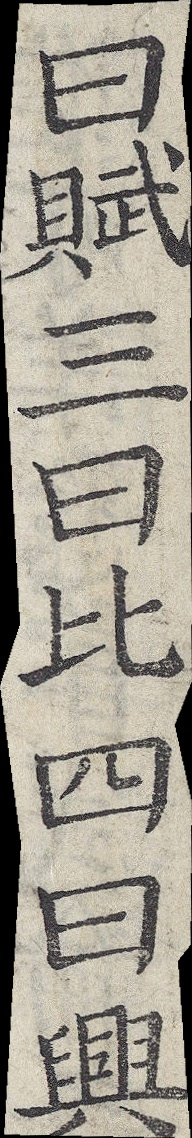曰賦三曰比四曰興
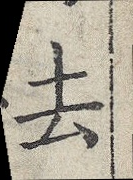去
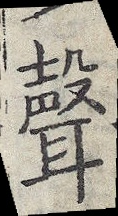聲
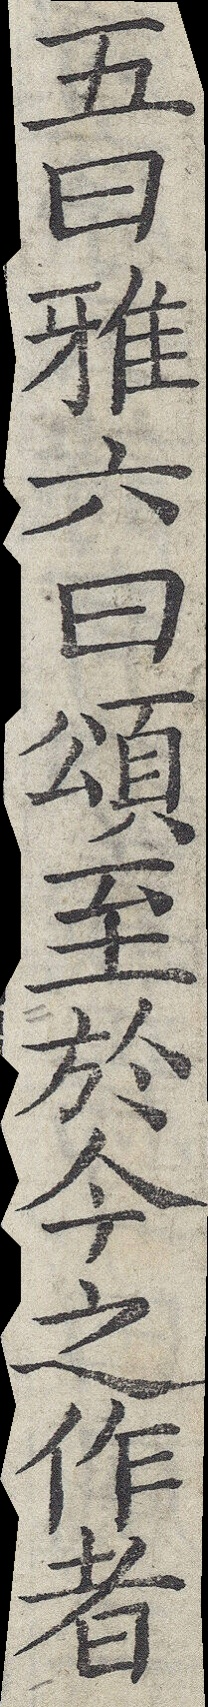五曰雅六曰頌至於今之作者
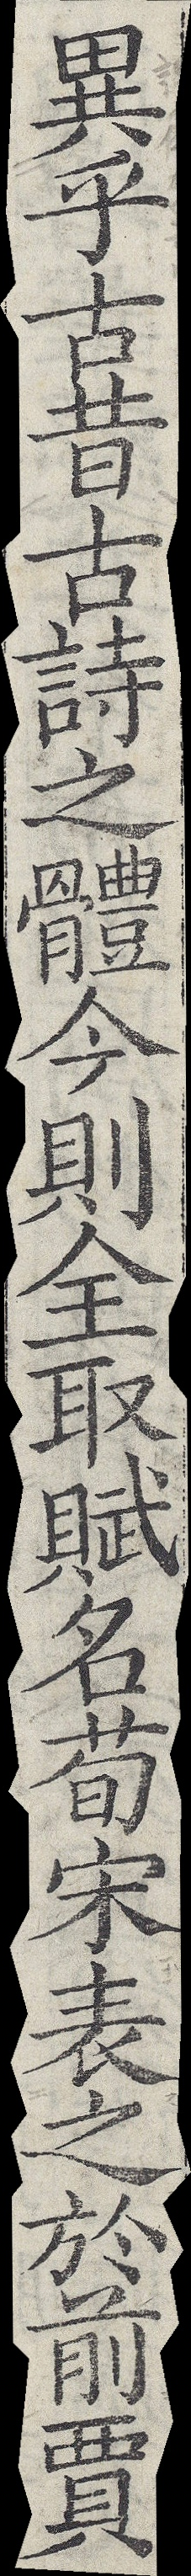異乎古昔古詩之體今則全取賦名荀宋表之於前賈
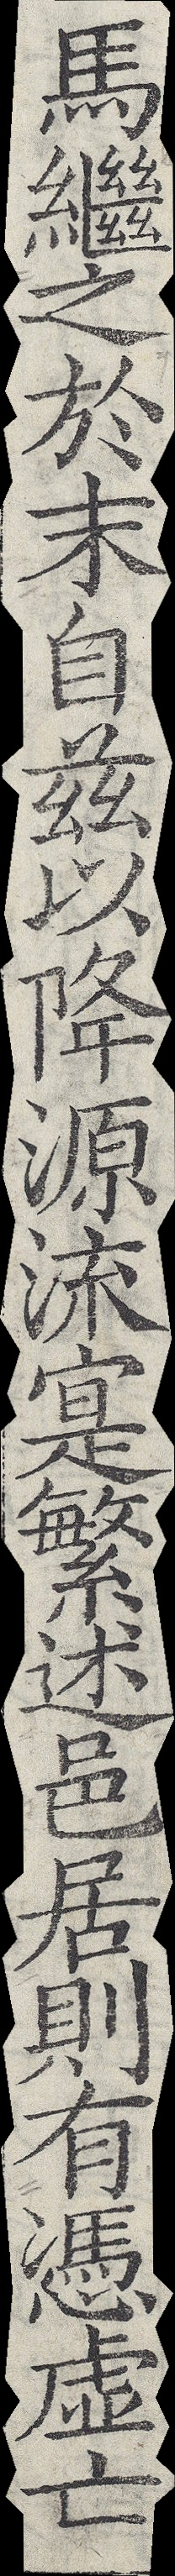馬繼之於末自茲以降源流寔繁述邑居則有憑虛亡
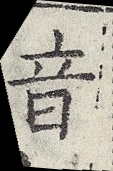音
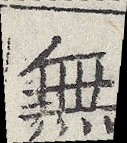無
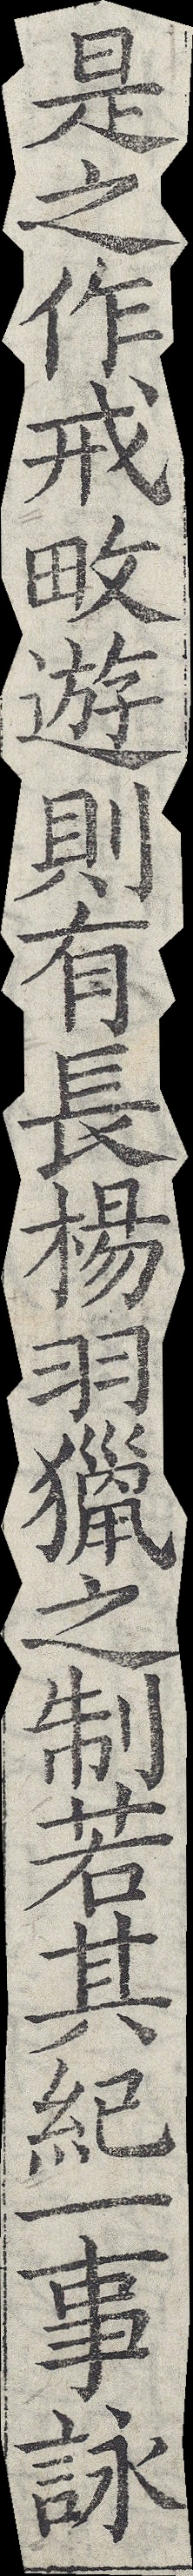是之作戒畋游則有長楊羽獵賦之制若其紀一事詠
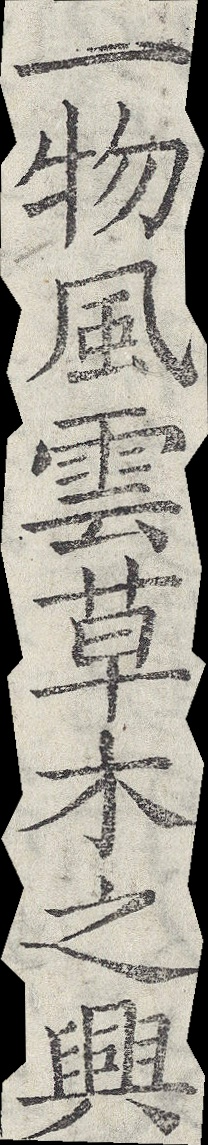一物風雲草木之興
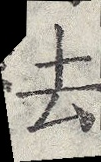去
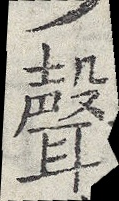聲
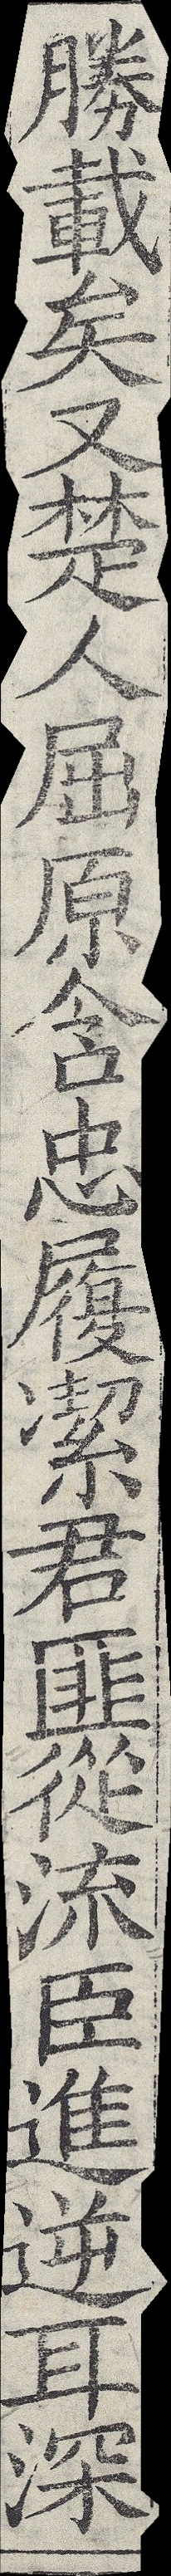勝載矣又楚人屈原含忠履潔君匪從流臣進逆耳深
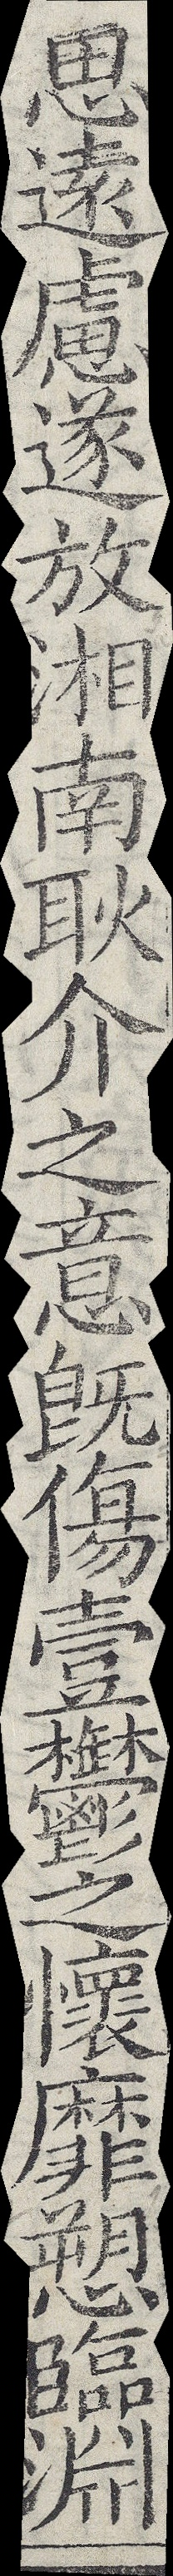思遠慮遂放湘南耿介之意卽傷壹鬱之懷靡愬臨淵
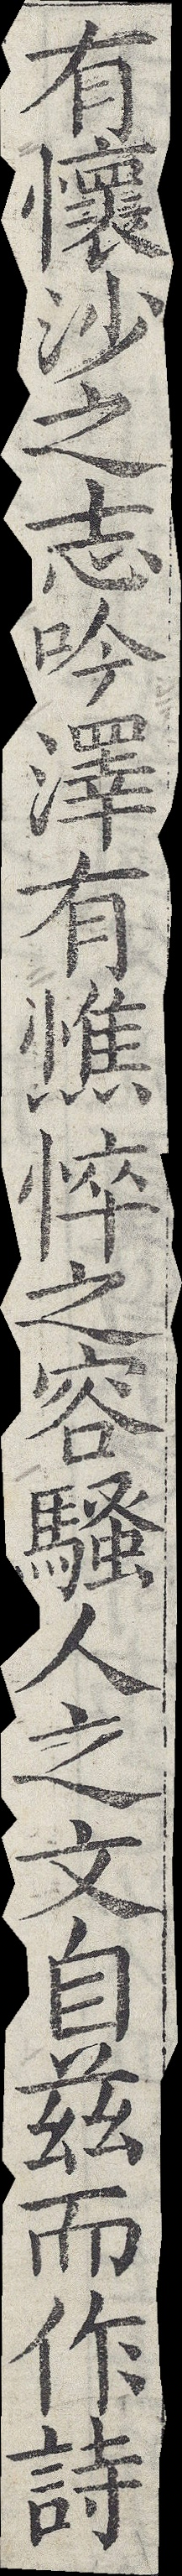有懷沙之志吟澤有憔悴之容騷人之文自茲而作詩
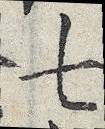七
